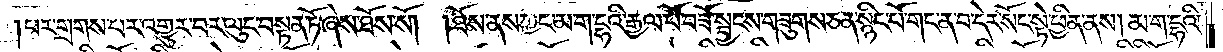པར་གྲགས་པར་འགྱུར་བར་ལུང་བསྟན་ཏོ་ཞེས་ཐོས་སོ། །ཐོས་ནས་ཀྱང་མ་ག་དྷའི་རྒྱལ་པོ་བཟོ་སྦྱངས་གཟུགས་ཅན་སྙིང་པོ་གང་ན་བ་དེར་སོང་སྟེ་ཕྱིན་ནས། མ་ག་དྷའི་
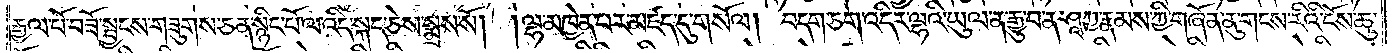རྒྱལ་པོ་བཟོ་སྦྱངས་གཟུགས་ཅན་སྙིང་པོ་ལ་འདི་སྐད་ཅེས་སྨྲས་སོ། །ལྷ་མཁྱེན་པར་མཛད་དུ་གསོལ། བདག་ཅག་འདིར་ལྷའི་ཡུལ་ན་རྒྱུ་བ་ན་ཤཱཀྱ་རྣམས་ཀྱི་གཞོན་ནུ་གངས་རིའི་ངོས་ཆུ་
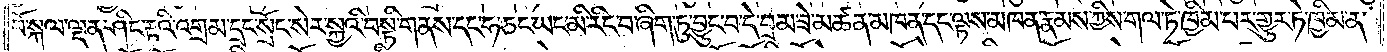བོ་སྐལ་ལྡན་ཤིང་རྟའི་འགྲམ་དྲང་སྲོང་སེར་སྐྱའི་བསྟི་གནས་དང་ཧ་ཅང་ཡང་མི་རིང་བ་ཞིག་ཏུ་བྱུང་བ་དེ་བྲམ་ཟེ་མཚན་མཁན་དང་ལྟས་མཁན་རྣམས་ཀྱིས་གལ་ཏེ་ཁྱིམ་པར་གྱུར་ཏེ་ཁྱིམ་ན་
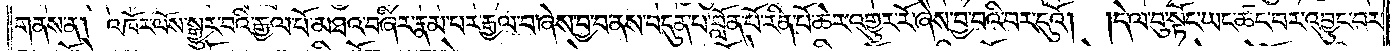གནས་ན། འཁོར་ལོས་སྒྱུར་བའི་རྒྱལ་པོ་མཐའ་བཞིར་རྣམ་པར་རྒྱལ་བ་ཞེས་བྱ་བ་ནས་བདུན་པ་བློན་པོ་རིན་པོ་ཆེར་འགྱུར་རོ་ཞེས་བྱ་བའི་བར་དུའོ། །དེ་ལ་བུ་སྟོང་ཡང་ཚང་བར་འབྱུང་བར་
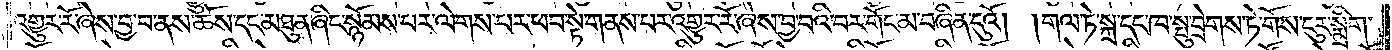འགྱུར་རོ་ཞེས་བྱ་བ་ནས་ཆོས་དང་མཐུན་ཞིང་སྙོམས་པར་ལེགས་པར་ཕབ་སྟེ་གནས་པར་འགྱུར་རོ་ཞེས་བྱ་བའི་བར་གོང་མ་བཞིན་དུའོ། །གལ་ཏེ་སྐྲ་དང་ཁ་སྤུ་བྲེགས་ཏེ་གོས་ངུར་སྨྲིག་
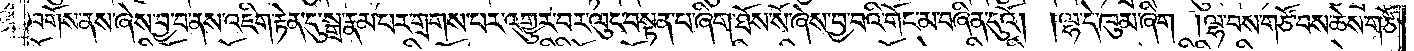བགོས་ནས་ཞེས་བྱ་བ་ནས་འཇིག་རྟེན་དུ་སྒྲ་རྣམ་པར་གྲགས་པར་འགྱུར་བར་ལུང་བསྟན་པ་ཞིག་ཐོས་སོ་ཞེས་བྱ་བའི་གོང་མ་བཞིན་དུའོ། །ལྷ་དེ་ཁུམ་ཞིག །ལྷ་བས་གཙོ་བས་ཆེས་གཙོ་
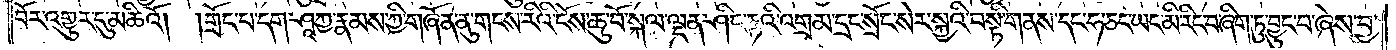བོར་འགྱུར་དུ་མཆིའོ། །གྲོང་པ་དག་ཤཱཀྱ་རྣམས་ཀྱི་གཞོན་ནུ་གངས་རིའི་ངོས་ཆུ་བོ་སྐལ་ལྡན་ཤིང་རྟའི་འགྲམ་དྲང་སྲོང་སེར་སྐྱའི་བསྟི་གནས་དང་ཧ་ཅང་ཡང་མི་རིང་བ་ཞིག་ཏུ་བྱུང་བ་ཞེས་བྱ་
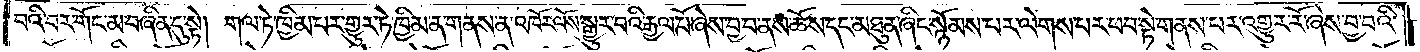བའི་བར་གོང་མ་བཞིན་དུ་སྟེ། གལ་ཏེ་ཁྱིམ་པར་གྱུར་ཏེ་ཁྱིམ་ན་གནས་ན་འཁོར་ལོས་སྒྱུར་བའི་རྒྱལ་པོ་ཞེས་བྱ་བ་ནས་ཆོས་དང་མཐུན་ཞིང་སྙོམས་པར་ལེགས་པར་ཕབ་སྟེ་གནས་པར་འགྱུར་རོ་ཞེས་བྱ་བའི་
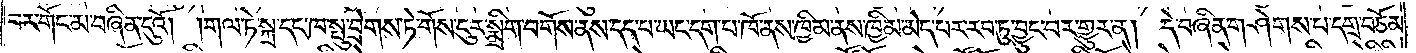བར་གོང་མ་བཞིན་དུའོ། །གལ་ཏེ་སྐྲ་དང་ཁ་སྤུ་བྲེགས་ཏེ་གོས་ངུར་སྨྲིག་བགོས་ནས་དད་པ་ཡང་དག་པ་ཁོ་ནས་ཁྱིམ་ནས་ཁྱིམ་མེད་པར་རབ་ཏུ་བྱུང་བར་གྱུར་ན། དེ་བཞིན་གཤེགས་པ་དགྲ་བཅོམ་
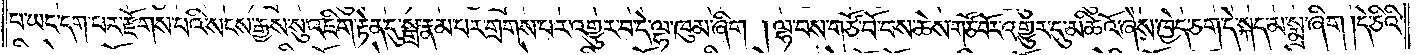པ་ཡང་དག་པར་རྫོགས་པའི་སངས་རྒྱས་སུ་འཇིག་རྟེན་དུ་སྒྲ་རྣམ་པར་གྲགས་པར་འགྱུར་བ་དེ་ལྷ་ཁུམ་ཞིག །ལྷ་བས་གཙོ་བོ་བས་ཆེས་གཙོ་བོར་འགྱུར་དུ་མཆིའོ་ཞེས་ཁྱེད་ཅག་དེ་སྐད་མ་སྨྲ་ཞིག །དེ་ཅིའི་
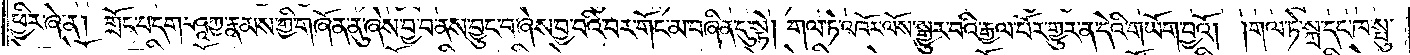ཕྱིར་ཞེ་ན། གྲོང་པ་དག་ཤཱཀྱ་རྣམས་ཀྱི་གཞོན་ནུ་ཞེས་བྱ་བ་ནས་བྱུང་བ་ཞེས་བྱ་བའི་བར་གོང་མ་བཞིན་དུ་སྟེ། གལ་ཏེ་འཁོར་ལོས་སྒྱུར་བའི་རྒྱལ་པོར་གྱུར་ན་དེའི་གཡོག་བྱའོ། །གལ་ཏེ་སྐྲ་དང་ཁ་སྤུ་
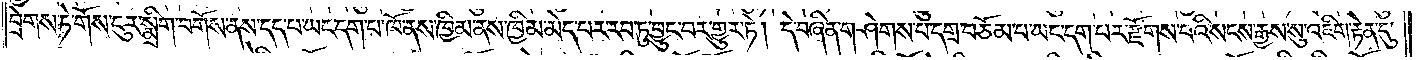བྲེགས་ཏེ་གོས་ངུར་སྨྲིག་བགོས་ནས་དད་པ་ཡང་དག་པ་ཁོ་ནས་ཁྱིམ་ནས་ཁྱིམ་མེད་པར་རབ་ཏུ་བྱུང་བར་གྱུར་ཏེ། དེ་བཞིན་གཤེགས་པ་དགྲ་བཅོམ་པ་ཡང་དག་པར་རྫོགས་པའི་སངས་རྒྱས་སུ་འཇིག་རྟེན་དུ་
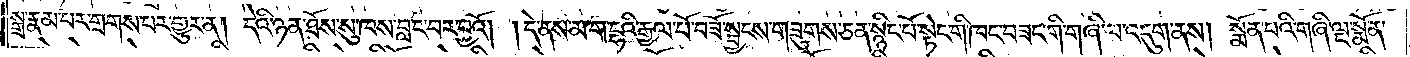སྒྲ་རྣམ་པར་གྲགས་པར་གྱུར་ན། དེའི་ཉན་ཐོས་སུ་ཁས་བླང་བར་བྱའོ། །དེ་ནས་མ་ག་དྷའི་རྒྱལ་པོ་བཟོ་སྦྱངས་གཟུགས་ཅན་སྙིང་པོ་སྟེང་གི་ཁང་བཟང་གི་གཞི་ལ་འདུག་ནས། སྨོན་པའི་གཞི་ལྔ་སྨོན་
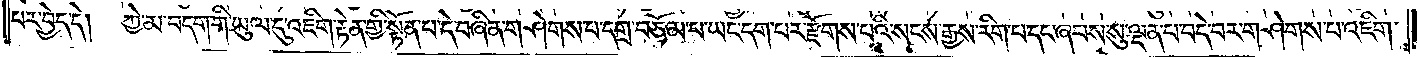པར་བྱེད་དེ།<gap>ཀྱེ་མ་བདག་གི་ཡུལ་དུ་འཇིག་རྟེན་གྱི་སྟོན་པ་དེ་བཞིན་གཤེགས་པ་དགྲ་བཅོམ་པ་ཡང་དག་པར་རྫོགས་པའི་སངས་རྒྱས་རིག་པ་དང་ཞབས་སུ་ལྡན་པ་བདེ་བར་གཤེགས་པ་འཇིག་
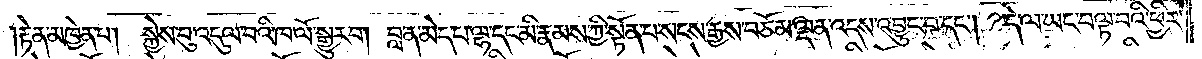རྟེན་མཁྱེན་པ། སྐྱེས་བུ་འདུལ་བའི་ཁ་ལོ་སྒྱུར་བ། བླ་ན་མེད་པ་ལྷ་དང་མི་རྣམས་ཀྱི་སྟོན་པ་སངས་རྒྱས་བཅོམ་ལྡན་འདས་འབྱུང་བ་དང༌། དེ་ལ་ཡང་བལྟ་བའི་ཕྱིར་
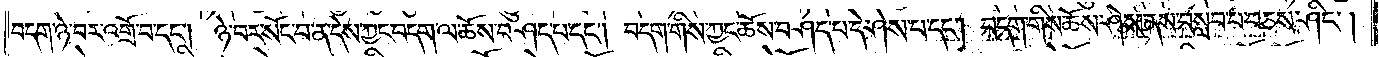བདག་ཉེ་བར་འགྲོ་བ་དང༌། ཉེ་བར་སོང་བ་ན་དེས་ཀྱང་བདག་ལ་ཆོས་བཤད་པ་དང༌། བདག་གིས་ཀྱང་ཆོས་བཤད་པ་དེ་ཤེས་པ་དང༌། བདག་གིས་ཆོས་ཤེས་ནས་བསླབ་པ་བཅས་ཤིང༌།
